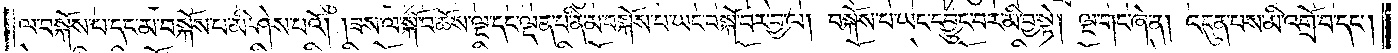ལ་བསྐོས་པ་དང་མ་བསྐོས་པ་མི་ཤེས་པའོ། །ཟས་ལ་སྐོ་བ་ཆོས་ལྔ་དང་ལྡན་པ་ནི་མ་བསྐོས་པ་ཡང་བསྐོ་བར་བྱ་ལ། བསྐོས་པ་ཡང་དབྱུང་བར་མི་བྱ་སྟེ། ལྔ་གང་ཞེ་ན། འདུན་པས་མི་འགྲོ་བ་དང༌།
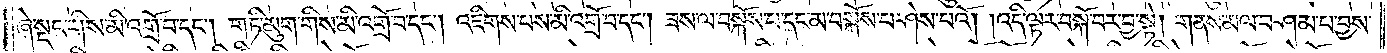ཞེ་སྡང་གིས་མི་འགྲོ་བ་དང༌། གཏི་མུག་གིས་མི་འགྲོ་བ་དང༌། འཇིགས་པས་མི་འགྲོ་བ་དང༌། ཟས་ལ་བསྐོས་པ་དང་མ་བསྐོས་པ་ཤེས་པའོ། །འདི་ལྟར་བསྐོ་བར་བྱ་སྟེ། གནས་མལ་བཤམ་པ་བྱས་
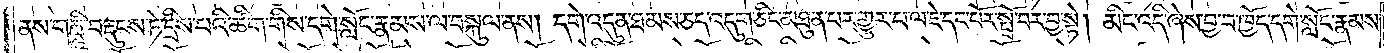ནས་གཎྜཱི་བརྡུངས་ཏེ་དྲིས་པའི་ཚིག་གིས་དགེ་སློང་རྣམས་ལ་བསྐུལ་ནས། དགེ་འདུན་ཐམས་ཅད་འདུག་ཅིང་མཐུན་པར་གྱུར་པ་ལ་ཇེ་དང་པོར་སྤྲོ་བར་བྱ་སྟེ། མིང་འདི་ཞེས་བྱ་བ་ཁྱོད་དགེ་སློང་རྣམས་
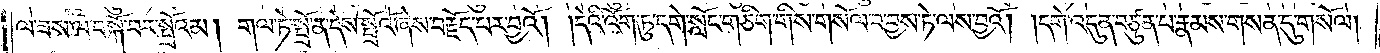ལ་ཟས་ལ་བསྐོ་བར་སྤྲོའམ། གལ་ཏེ་སྤྲོ་ན་དེས་སྤྲོའོ་ཞེས་བརྗོད་པར་བྱའོ། །དེའི་འོག་ཏུ་དགེ་སློང་གཅིག་གིས་གསོལ་བ་བྱས་ཏེ་ལས་བྱའོ། །དགེ་འདུན་བཙུན་པ་རྣམས་གསན་དུ་གསོལ།
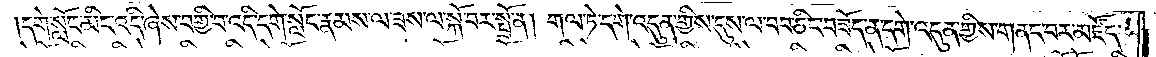དགེ་སློང་མིང་འདི་ཞེས་བགྱི་བ་འདི་དགེ་སློང་རྣམས་ལ་ཟས་ལ་སྐོ་བར་སྤྲོ་ན། གལ་ཏེ་དགེ་འདུན་གྱིས་དུས་ལ་བབ་ཅིང་བཟོད་ན་དགེ་འདུན་གྱིས་གནང་བར་མཛོད་
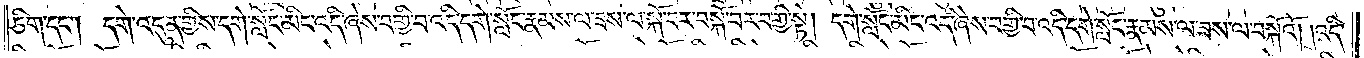ཅིག་དང༌། དགེ་འདུན་གྱིས་དགེ་སློང་མིང་འདི་ཞེས་བགྱི་བ་འདི་དགེ་སློང་རྣམས་ལ་ཟས་ལ་སྐོ་བར་བསྐོ་བར་བགྱི་སྟེ། དགེ་སློང་མིང་འདི་ཞེས་བགྱི་བ་འདི་དགེ་སློང་རྣམས་ལ་ཟས་ལ་བསྐོའོ། །འདི་
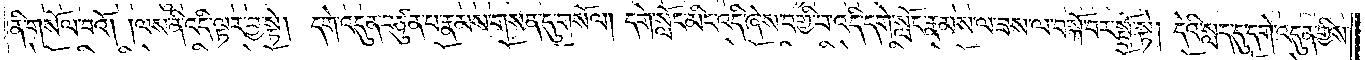ནི་གསོལ་བའོ། །ལས་ནི་འདི་ལྟར་བྱ་སྟེ། དགེ་འདུན་བཙུན་པ་རྣམས་གསན་དུ་གསོལ། དགེ་སློང་མིང་འདི་ཞེས་བགྱི་བ་འདི་དགེ་སློང་རྣམས་ལ་ཟས་ལ་བསྐོ་བར་སྤྲོ་སྟེ། དེའི་སླད་དུ་དགེ་འདུན་གྱིས་
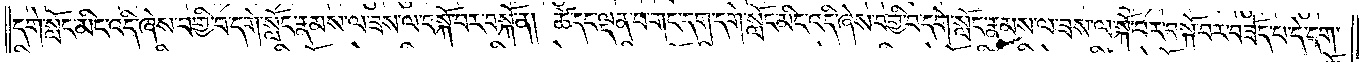དགེ་སློང་མིང་འདི་ཞེས་བགྱི་བ་དགེ་སློང་རྣམས་ལ་ཟས་ལ་བསྐོ་བར་བསྐོ་ན། ཚེ་དང་ལྡན་པ་གང་དག་དགེ་སློང་མིང་འདི་ཞེས་བགྱི་བ་དགེ་སློང་རྣམས་ལ་ཟས་ལ་སྐོ་བར་བསྐོ་བར་བཟོད་པ་དེ་དག་
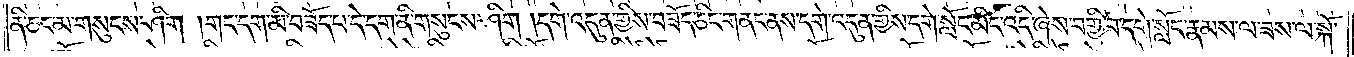ནི་ཅང་མ་གསུངས་ཤིག །གང་དག་མི་བཟོད་པ་དེ་དག་ནི་གསུངས་ཤིག །དགེ་འདུན་གྱིས་བཟོད་ཅིང་གནང་ནས་དགེ་འདུན་གྱིས་དགེ་སློང་མིང་འདི་ཞེས་བགྱི་བ་དགེ་སློང་རྣམས་ལ་ཟས་ལ་སྐོ་
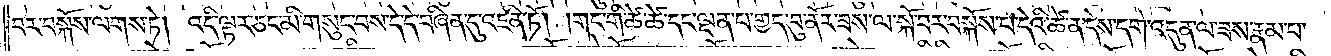བར་བསྐོས་ལགས་ཏེ། འདི་ལྟར་ཅང་མི་གསུང་བས་དེ་དེ་བཞིན་དུ་འཛིན་ཏོ། །གང་གི་ཚེ་ཚེ་དང་ལྡན་པ་གྱད་བུ་ནོར་ཟས་ལ་སྐོ་བར་བསྐོས་པ་དེའི་ཚེ་ན་དེས་དགེ་འདུན་ལ་ཟས་རྣམ་པ་
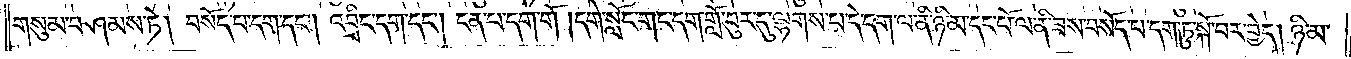གསུམ་བཤམས་ཏེ། བསོད་པ་དག་དང༌། འབྲིང་དག་དང༌། ངན་པ་དག་གོ །དགེ་སློང་གང་དག་གློ་བུར་དུ་ལྷགས་པ་དེ་དག་ལ་ནི་ཉི་མ་དང་པོ་ལ་ནི་ཟས་བསོད་པ་དག་ཏུ་སྐོ་བར་བྱེད། ཉི་མ་
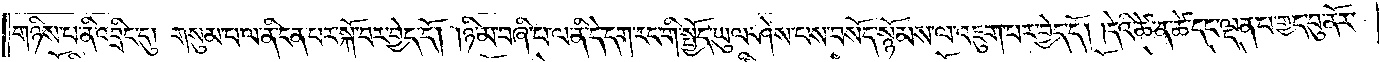གཉིས་པ་ནི་འབྲིང་དུ། གསུམ་པ་ལ་ནི་ངན་པར་སྐོ་བར་བྱེད་དོ། །ཉི་མ་བཞི་པ་ལ་ནི་དེ་དག་རང་གི་སྤྱོད་ཡུལ་ཤེས་པས་བསོད་སྙོམས་ལ་འཇུག་པར་བྱེད་དོ། །དེའི་ཚེ་ན་ཚེ་དང་ལྡན་པ་གྱད་བུ་ནོར་
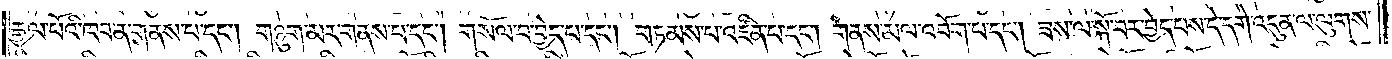རྒྱལ་པོའི་ཁབ་ན་གནས་པ་དང༌། གཉུག་མར་གནས་པ་དང༌། གསོལ་བ་བྱེད་པ་དང༌། གཏམས་པ་འཛིན་པ་དང༌། གནས་མལ་འབོག་པ་དང༌། ཟས་ལ་སྐོ་བར་བྱེད་པས་དེ་དགེ་འདུན་ལ་ལུགས་
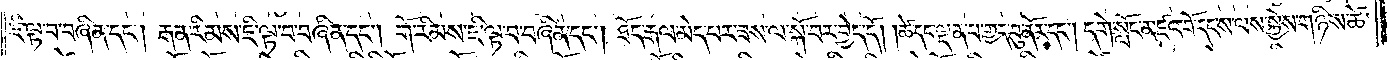ཇི་ལྟ་བ་བཞིན་དང༌། རྒན་རིམས་ཇི་ལྟ་བ་བཞིན་དང༌། གོ་རིམས་ཇི་ལྟ་བ་བཞིན་དང༌། ཐོད་རྒལ་མེད་པར་ཟས་ལ་སྐོ་བར་བྱེད་དོ། །ཚེ་དང་ལྡན་པ་གྱད་བུ་ནོར་དང༌། དགེ་སློང་མཛའ་བོ་དང་ས་ལས་སྐྱེས་གཉིས་ཚེ་
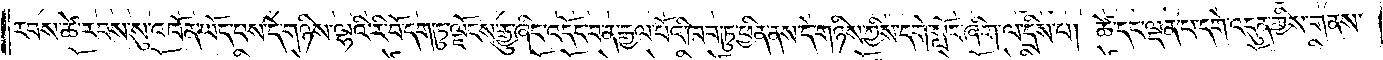རབས་ཚེ་རབས་སུ་འཁོན་ཡོད་པས་དེ་གཉིས་ལྷའི་རི་བོ་དག་ཏུ་ལྗོངས་རྒྱུ་ཞིང་འདོང་བ་ན་རྒྱལ་པོའི་ཁབ་ཏུ་ཕྱིན་ནས་དེ་གཉིས་ཀྱིས་དགེ་སློང་ཞིག་ལ་དྲིས་པ། ཚེ་དང་ལྡན་པ་དགེ་འདུན་གྱིས་གནས་
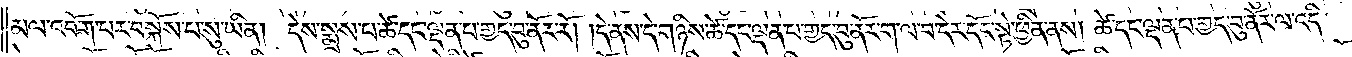མལ་འབོག་པར་བསྐོས་པས་ཡིན། དེས་སྨྲས་པ་ཚེ་དང་ལྡན་པ་གྱད་བུ་ནོར་རོ། །དེ་ནས་དེ་གཉིས་ཚེ་དང་ལྡན་པ་གྱད་བུ་ནོར་ག་ལ་བ་དེར་དོང་སྟེ་ཕྱིན་ནས། ཚེ་དང་ལྡན་པ་གྱད་བུ་ནོར་ལ་འདི་
